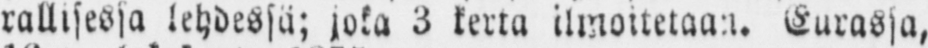rallisessa lehdessä; joka 3 kerta ilmoitetaan. Eurassa,
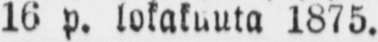16 p. lokakuuta 1875.
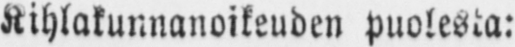Kihlakunnanoikeuden puolesta:
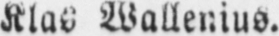Klas Wallenius.
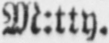M:tty.
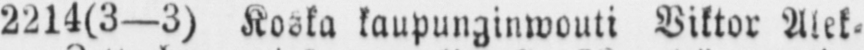2214(3—3) Koska kaupunginwouti Viktor Alek-
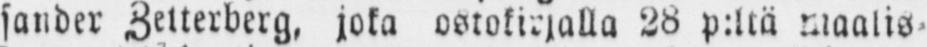sander Zetterberg, joka ostokirjalla 28 p:llä maalis-
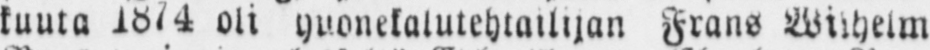kuuta 1874 oli huonekalutehtailijan Frans Wilhelm
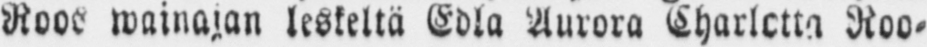Roos wainajan leskeltä Edla Aurora Charlotta Roo-
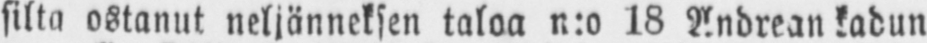silta ostanut neljänneksen taloa n:o 18 Andrean kadun
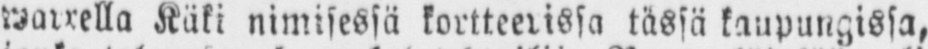warrella Käki nimisessä kortteerissa tässä kaupungissa,
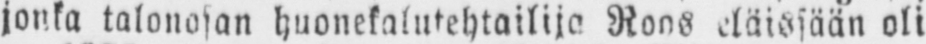jonka talonosan huonekalutehtailija Roos eläissään oli
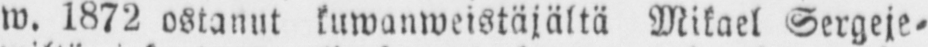w. 1872 ostanut kuwanweistäjältä Mikael Sergeje-
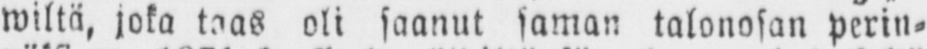wiltä, joka taas oli saanut saman talonosan perin-
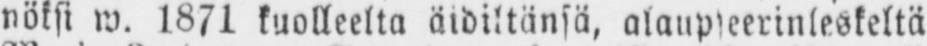nöksi w. 1871 kuolleella äidiltänsä, alaupseerinleskeltä
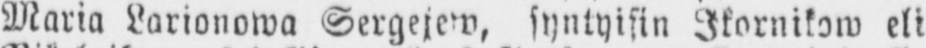Maria Larionowa Sergejew, syntyisin Ikornikow eli
